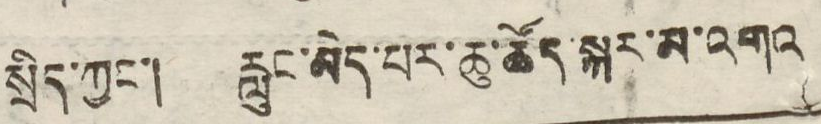སྲིད་ཀྱང་། རླུང་མེད་པར་ཆུ་ཚོད་སྐར་མ་འགའ
